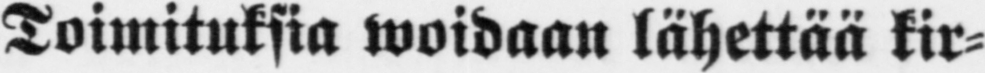Toimituksia woidaan lähettää kir-
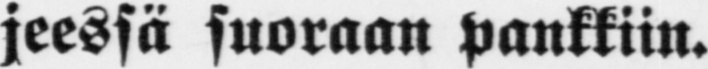jeessä suoraan pankkiin.
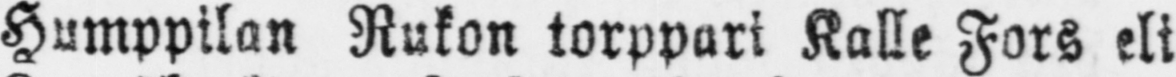Humppilan Rukon torppari Kalle Fors eli
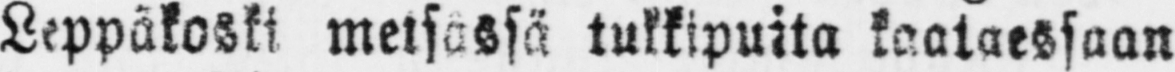Leppäkoski metsässä tukkipuita kaataessaan
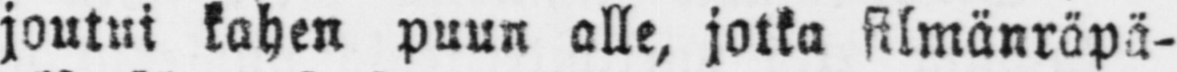joutui kahen puun alle, jotka silmänräpä-
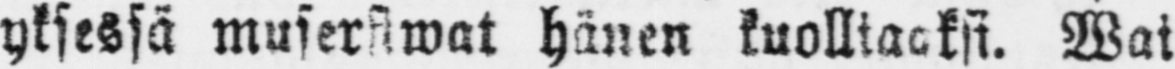yksessä musersiwat hänen kuolliaaksi. Wai
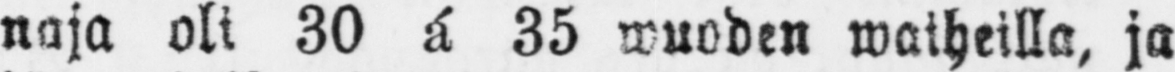naja oli 30 á 35 wuoden waiheilla, ja
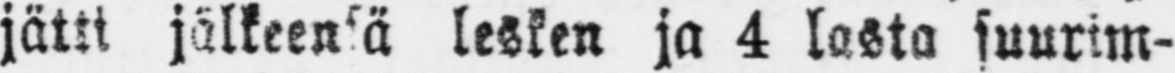jätti jälkeensä lesken ja 4 lasta suurim-
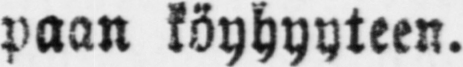paan köyhyyteen.
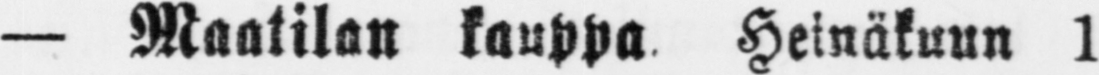— Maatilan kauppa Heinäkuun 1
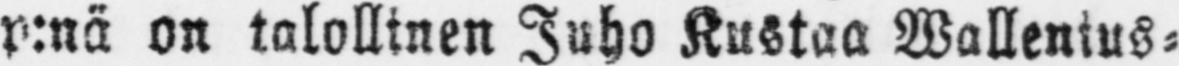p:nä on talollinen Juho Kustaa Wallenius-
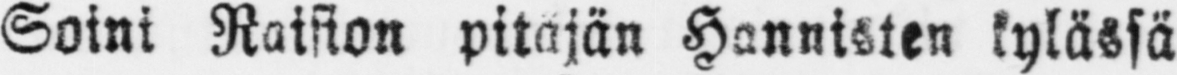Soini Raision pitäjän Hannisten kylässä
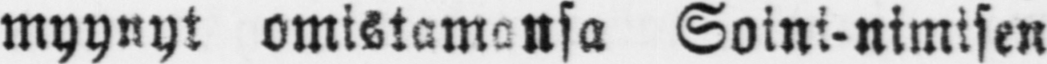myynyt omistamansa Soini-nimisen
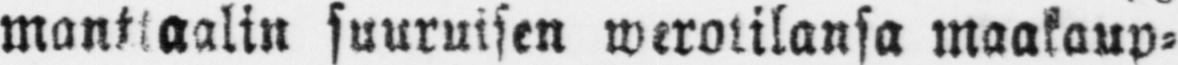manttaalin suuruisen werotilansa maakaup-
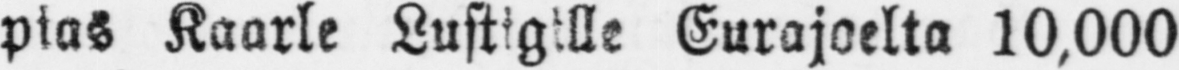pias Kaarle Lustigille Eurajoelta 10,000
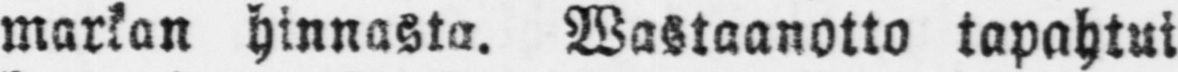markan hinnasta. Wastaanotto tapahtui
